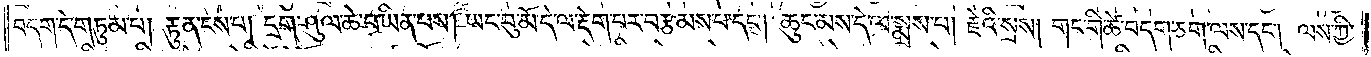བདག་དེ་གཏུམ་པ། རྟུན་ངས་པ། དྲག་ཤུལ་ཆེ་བ་ཡིན་པས། ཡང་བུ་མོ་དེ་ལ་རྡེག་པར་བརྩམས་པ་དང༌། ཆུང་མས་དེ་ལ་སྨྲས་པ། རྗེའི་སྲས། གང་གི་ཚེ་བདག་ཅག་ལས་དང༌། ལས་ཀྱི་
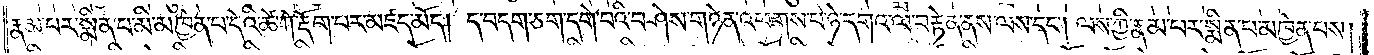རྣམ་པར་སྨིན་པ་མི་མཁྱེན་པ་དེའི་ཚེ་ཀེ་རྡོག་པར་མཛད་མོད། ད་བདག་ཅག་དགེ་བའི་བཤེས་གཉེན་འཕགས་པ་ཉེ་དགའ་ལ་བརྟེན་ནས་ལས་དང༌། ལས་ཀྱི་རྣམ་པར་སྨིན་པ་མཁྱེན་པས།
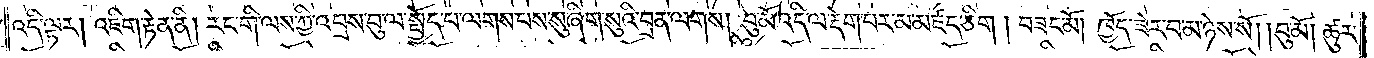འདི་ལྟར། འཇིག་རྟེན་ནི། རང་གི་ལས་ཀྱི་འབྲས་བུ་ལ་སྤྱོད་པ་ལགས་པས་སུ་ཞིག་སུའི་བྲན་ལགས། བུ་མོ་འདི་ལ་རྡེག་པར་མ་མཛད་ཅིག ། བཟང་མོ། ཁྱོད་ཟེར་བ་མ་ཉེས་སོ། །བུ་མོ། ཚུར་
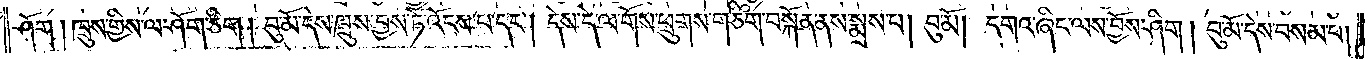ཤོག ། ཁྲུས་ཀྱིས་ལ་ཤོག་ཅིག ། བུ་མོ་དེས་ཁྲུས་བྱས་ཏེ་འོངས་པ་དང༌། དེས་དེ་ལ་གོས་ཕྲུགས་གཅིག་བསྐོན་ནས་སྨྲས་པ། བུ་མོ། དགའ་ཞིང་ལས་བྱོས་ཤིག ། བུ་མོ་དེས་བསམ་པ།
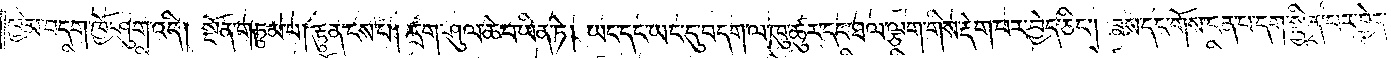ཁྱིམ་བདག་ཁྱོ་ཤུག་འདི། སྔོན་གཏུམ་པ། རྟུན་ངས་པ། དྲག་ཤུལ་ཆེ་བ་ཡིན་ཏེ། ཡང་དང་ཡང་དུ་བདག་ལ་ཁུ་ཚུར་དང་ཐལ་ལྕག་གིས་རྡེག་པར་བྱེད་ཅིང༌། ཟས་དང་གོས་ངན་པ་དག་སྦྱིན་པར་བྱེད་
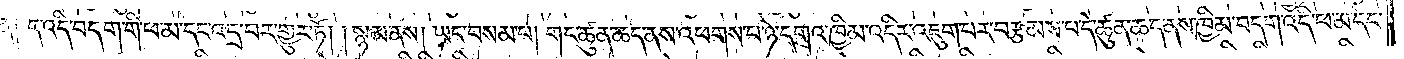ན༏ ད་འདི་བདག་གི་ཕ་མ་དང་འདྲ་བར་གྱུར་ཏོ། །སྙམ་ནས། ཡང་བསམ་པ། གང་ཚུན་ཆད་ནས་འཕགས་པ་ཉེ་དགའ་ཁྱིམ་འདིར་འཇུག་པར་བརྩམས་པ་དེ་ཚུན་ཆད་ནས་ཁྱིམ་བདག་འདི་ཕ་མ་དང་
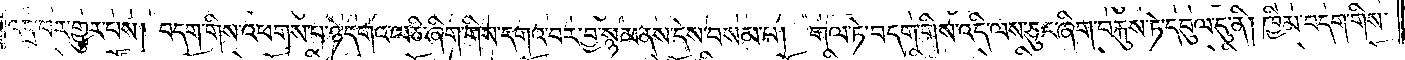འདྲ་བར་གྱུར་པས། བདག་གིས་འཕགས་པ་ཉེ་དགའ་ལ་ཅི་ཞིག་གིས་དགའ་བར་བྱ་སྙམ་ནས་དེས་བསམ་པ། གལ་ཏེ་བདག་གིས་འདི་ལས་ཅུང་ཞིག་བརྐུས་ཏེ་དབུལ་དུ་ནི། ཁྱིམ་བདག་གིས་
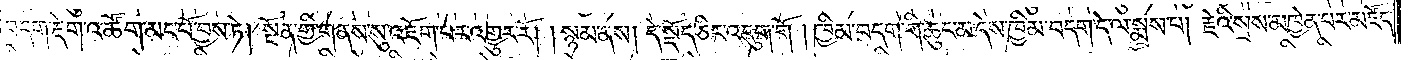བདག་རྡེག་འཚོག་མང་པོ་བྱས་ཏེ། སྔོན་གྱི་གནས་སུ་འཇོག་པར་འགྱུར་རོ། །སྙམ་ནས། དེ་སྡོད་ཅིང་འདུག་གོ །ཁྱིམ་བདག་གི་ཆུང་མ་དེས་ཁྱིམ་བདག་དེ་ལ་སྨྲས་པ། རྗེའི་སྲས་མཁྱེན་པར་མཛོད་
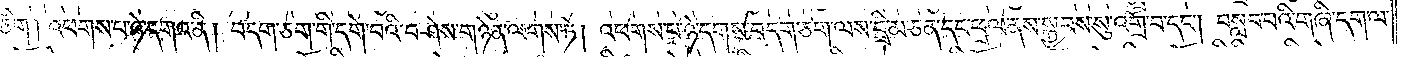ཅིག ། འཕགས་པ་ཉེ་དགའ་ནི། བདག་ཅག་གི་དགེ་བའི་བཤེས་གཉེན་ལགས་ཏེ། འཕགས་པ་ཉེ་དགས་བདག་ཅག་ལས་དྲི་མ་ཅན་དང་ཕྲལ་ནས་སྐྱབས་སུ་འགྲོ་བ་དང༌། བསླབ་པའི་གཞི་དག་ལ་
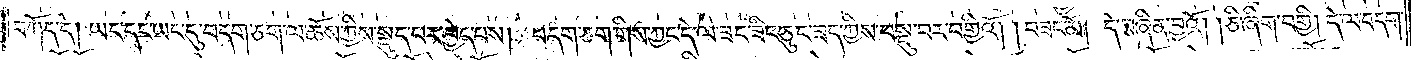བཀོད་དེ། ཡང་དང་ཡང་དུ་བདག་ཅག་ལ་ཆོས་ཀྱིས་སྡུད་པར་བྱེད་པས། བདག་ཅག་གིས་ཀྱང་དེ་ལ་ཟང་ཟིང་ཅུང་ཟད་ཀྱིས་བསྡུ་བར་བགྱིའོ། །བཟང་མོ། དེ་བཞིན་བྱའོ། །ཅི་ཞིག་བགྱི། དེ་ལ་བདག་
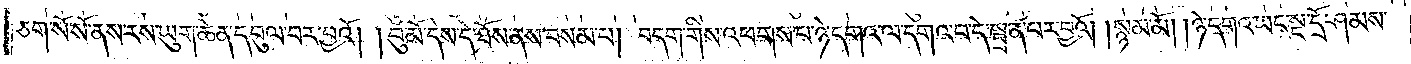ཅག་སོ་སོ་ནས་རས་ཡུག་ཆེན་དབུལ་བར་བྱའོ། །བུ་མོ་དེས་དེ་ཐོས་ནས་བསམ་པ། བདག་གིས་འཕགས་པ་ཉེ་དགའ་ལ་དགའ་བ་དེ་སྦྲན་པར་བྱའོ། །སྙམ་མོ། །ཉེ་དགའ་ཡང་སྔ་དྲོ་ཤམས་
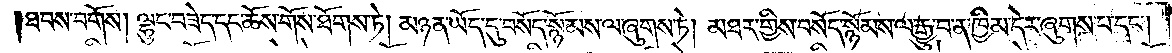ཐབས་བགོས། ལྷུང་བཟེད་དང་ཆོས་གོས་ཐོགས་ཏེ། མཉན་ཡོད་དུ་བསོད་སྙོམས་ལ་ཞུགས་ཏེ། མཐར་གྱིས་བསོད་སྙོམས་ལ་རྒྱུ་བ་ན་ཁྱིམ་དེར་ཞུགས་པ་དང༌།
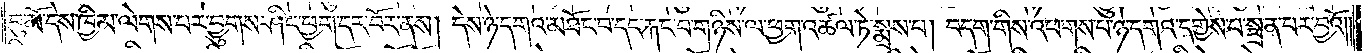བུ་མོ་དེས་ཁྱིམ་ལེགས་པར་བྱུགས་ཤིང་ཕྱག་དར་བོར་ནས། དེས་ཉེ་དགའ་མཐོང་བ་དང་རྐང་པ་གཉིས་ལ་ཕྱག་འཚལ་ཏེ་སྨྲས་པ། བདག་གིས་འཕགས་པ་ཉེ་དགའ་དགྱེས་པ་སྦྲན་པར་བྱའོ༎
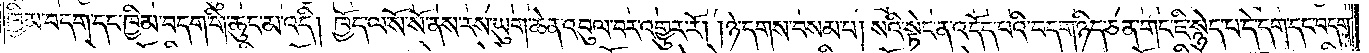ཁྱིམ་བདག་དང་ཁྱིམ་བདག་གི་ཆུང་མ་འདི། ཁྱོད་ལ་སོ་སོ་ནས་རས་ཡུག་ཆེན་འབུལ་བར་འགྱུར་རོ། །ཉེ་དགས་བསམ་པ། སའི་སྟེང་ན་འདོད་པའི་བདག་ཉིད་ཅན་གང་ཇི་སྙེད་པ་དེ་དག་དང་བདག་
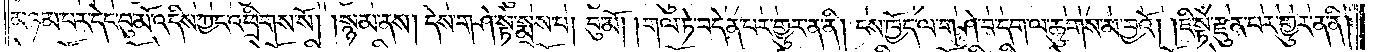མཉམ་པར་དེང་བུ་མོ་འདིས་ཀྱང་འཕྲིགས་སོ། །སྙམ་ནས། དེས་གཤེ་སྟེ་སྨྲས་པ། བུ་མོ། །གལ་ཏེ་བདེན་པར་གྱུར་ན་ནི། ངས་ཁྱོད་ལ་གཤེ་བ་དག་ལ་ཆུགས་མ་བྱའོ། །ཇི་སྟེ་རྫུན་པར་གྱུར་ན་ནི།
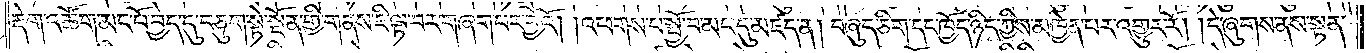རྡེག་འཚོག་མང་པོ་བྱེད་དུ་བཅུག་སྟེ་སྔོན་གྱི་གནས་ཇི་ལྟ་བར་གཞག་པར་བྱའོ། །འཕགས་པ་སྤྱོ་བ་མང་དུ་མཛད་ན། བཞུད་ཅིག་དང་ཁྱོད་ཉིད་ཀྱིས་མཁྱེན་པར་འགྱུར་རོ། །དེ་ཞུགས་ནས་སྟན་
